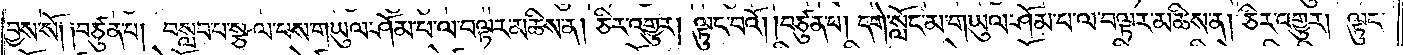བྱས་སོ༑ ༑བཙུན་པ། བསླབ་པ་སྩལ་པས་གཡུལ་ཤོམ་པ་ལ་བལྟར་མཆིས་ན། ཅིར་འགྱུར། ལྟུང་བའོ། །བཙུན་པ། དགེ་སློང་མ་གཡུལ་ཤོམ་པ་ལ་བལྟར་མཆིས་ན། ཅིར་འགྱུར། ལྟུང་
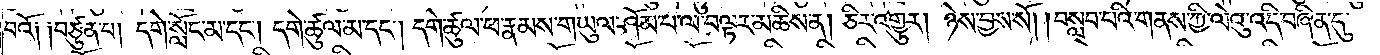བའོ༑ ༑བཙུན་པ། དགེ་སློང་མ་དང༌། དགེ་ཚུལ་མ་དང༌། དགེ་ཚུལ་ཕ་རྣམས་གཡུལ་ཤོམ་པ་ལ་བལྟར་མཆིས་ན། ཅིར་འགྱུར། ཉེས་བྱས་སོ། །བསླབ་པའི་གནས་ཀྱི་ལེའུ་འདི་བཞིན་དུ་
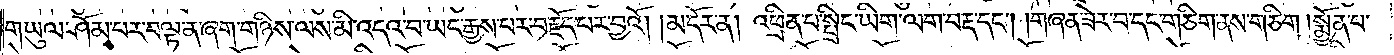གཡུལ་ཤོམ་པར་བལྟ་ན་ཞག་གཉིས་ལས་མི་འདའ་བ་ཡང་རྒྱས་པར་བརྗོད་པར་བྱའོ།    །མདོར་ན། འཕྲིན་པ་སྤྲིང་ཡིག་ལག་བརྡ་དང༌། །གཞན་ཟེར་བ་དང་གཅིག་ནས་གཅིག །སྨྱོན་པ་
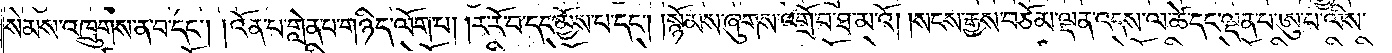སེམས་འཁྲུགས་ན་བ་དང༌། །འོན་པ་གླེན་པ་གཉིད་ལོག་པ། །ར་རོ་བ་དང་མྱོས་པ་དང༌། །སྙོམས་ཞུགས་འགྲོ་བ་ཐ་མའོ། །སངས་རྒྱས་བཅོམ་ལྡན་འདས་ལ་ཚེ་དང་ལྡན་པ་ཨུ་པ་ལིས་
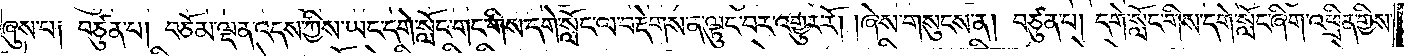ཞུས་པ། བཙུན་པ། བཅོམ་ལྡན་འདས་ཀྱིས་ཡང་དགེ་སློང་གང་གིས་དགེ་སློང་ལ་བརྡེགས་ན་ལྟུང་བར་འགྱུར་རོ། །ཞེས་གསུངས་ན། བཙུན་པ། དགེ་སློང་གིས་དགེ་སློང་ཞིག་འཕྲིན་གྱིས་
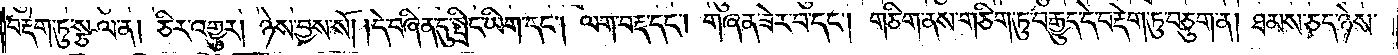བརྡེག་ཏུ་སྩལ་ན། ཅིར་འགྱུར། ཉེས་བྱས་སོ། །དེ་བཞིན་དུ་སྤྲིང་ཡིག་དང༌། ལག་བརྡ་དང༌། གཞན་ཟེར་བ་དང༌། གཅིག་ནས་གཅིག་ཏུ་བརྒྱུད་དེ་བརྡེག་ཏུ་བཅུག་ན། ཐམས་ཅད་ཉེས་བྱས་
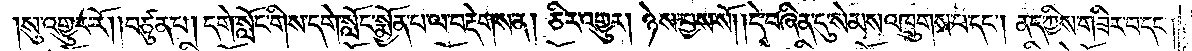།སུ་འགྱུར་རོ། །བཙུན་པ། དགེ་སློང་གིས་དགེ་སློང་སྨྱོན་པ་ལ་བརྡེགས་ན། ཅིར་འགྱུར། ཉེས་བྱས་སོ། །དེ་བཞིན་དུ་སེམས་འཁྲུགས་པ་དང༌། ནད་ཀྱིས་གཟིར་བ་དང་
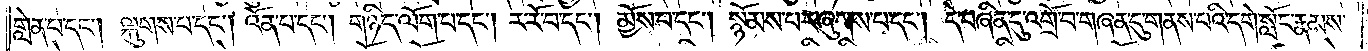གླེན་པ་དང༌། ལྐུགས་པ་དང༌། འོན་པ་དང༌། གཉིད་ལོག་པ་དང༌། ར་རོ་བ་དང༌། མྱོས་པ་དང༌། སྙོམས་པར་ཞུགས་པ་དང༌། དེ་བཞིན་དུ་འགྲོ་བ་གཞན་དུ་གནས་པའི་དགེ་སློང་རྣམས་
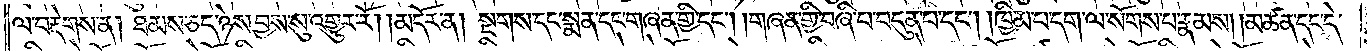ལ་བརྡེགས་ན། ཐམས་ཅད་ཉེས་བྱས་སུ་འགྱུར་རོ། །མདོར་ན། སྔགས་དང་སྨན་དང་གཞན་གྱི་དང༌། །གཞན་གྱི་བཞི་པ་བདུན་པ་དང༌། །ཁྱིམ་པ་དག་ལ་སོགས་པ་རྣམས། །མཚན་དང་དེ་
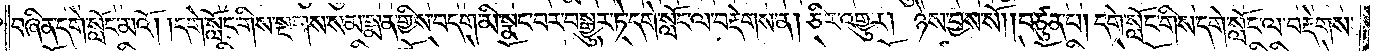བཞིན་དགེ་སློང་མའོ། །དགེ་སློང་གིས་སྔགས་སམ་སྨན་གྱིས་བདག་མི་སྣང་བར་བསྒྱུར་ཏེ་དགེ་སློང་ལ་བརྡེགས་ན། ཅིར་འགྱུར། ཉེས་བྱས་སོ། །བཙུན་པ། དགེ་སློང་གིས་དགེ་སློང་ལ་བརྡེགས་
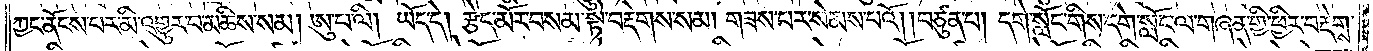ཀྱང་ནོངས་པར་མི་འགྱུར་བ་མཆིས་སམ། ཨུ་པ་ལི། ཡོད་དེ། རྩེད་མོར་བསམ་སྟེ་བརྡེགས་སམ། གཟས་པར་སེམས་པའོ། །བཙུན་པ། དགེ་སློང་གིས་དགེ་སློང་ལ་གཞན་གྱི་ཕྱིར་བརྡེགས་
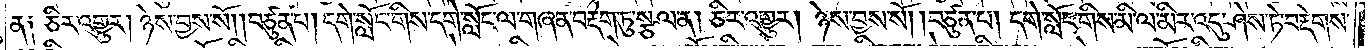ན༑ ཅིར་འགྱུར། ཉེས་བྱས་སོ། །བཙུན་པ། དགེ་སློང་གིས་དགེ་སློང་ལ་གཞན་བརྡེག་ཏུ་སྩལ་ན། ཅིར་འགྱུར། ཉེས་བྱས་སོ། །བཙུན་པ། དགེ་སློང་གིས་མི་ལ་མིར་འདུ་ཤེས་ཏེ་བརྡེགས་
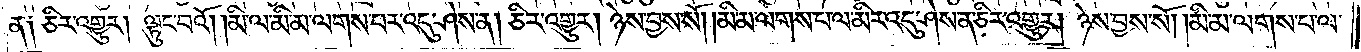ན༑ ཅིར་འགྱུར། ལྟུང་བའོ། །མི་ལ་མི་མ་ལགས་པར་འདུ་ཤེས་ན། ཅིར་འགྱུར། ཉེས་བྱས་སོ། །མི་མ་ལགས་པ་ལ་མིར་འདུ་ཤེས་ན་ཅིར་འགྱུར། ཉེས་བྱས་སོ། །མི་མ་ལགས་པ་ལ་
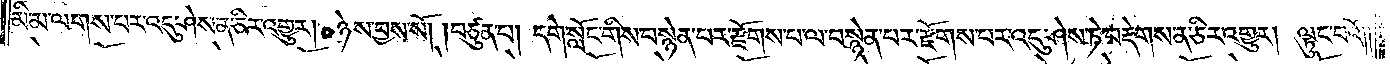མི་མ་ལགས་པར་འདུ་ཤེས་ན་ཅིར་འགྱུར། ཉེས་བྱས་སོ། །བཙུན་པ། དགེ་སློང་གིས་བསྙེན་པར་རྫོགས་པ་ལ་བསྙེན་པར་རྫོགས་པར་འདུ་ཤེས་ཏེ་བརྡེགས་ན་ཅིར་འགྱུར། ལྟུང་བའོ། །
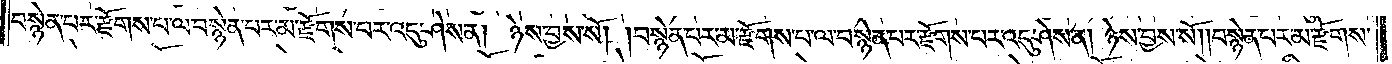བསྙེན་པར་རྫོགས་པ་ལ་བསྙེན་པར་མ་རྫོགས་པར་འདུ་ཤེས་ན། ཉེས་བྱས་སོ། །བསྙེན་པར་མ་རྫོགས་པ་ལ་བསྙེན་པར་རྫོགས་པར་འདུ་ཤེས་ན། ཉེས་བྱས་སོ། །བསྙེན་པར་མ་རྫོགས་
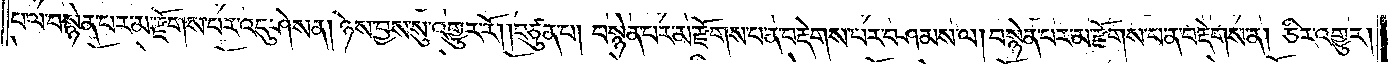པ་ལ་བསྙེན་པར་མ་རྫོགས་པར་འདུ་ཤེས་ན། ཉེས་བྱས་སུ་འགྱུར་རོ། །བཙུན་པ། བསྙེན་པར་མ་རྫོགས་པ་ན་བརྡེགས་པར་བཤམས་ལ། བསྙེན་པར་མ་རྫོགས་པ་ན་བརྡེགས་ན། ཅིར་འགྱུར།
